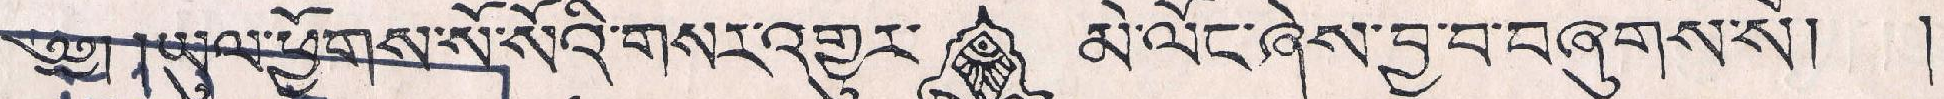༄༅། །ཡུལ་ཕྱོགས་སོ་སོའི་གསར་འགྱུར་ མེ་ལོང་ཞེས་བྱ་བ་བཞུགས་སོ། །
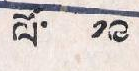ལོ་ ༡༩
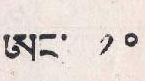ཨང་ ༡༠
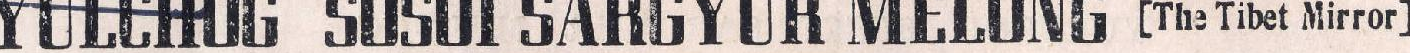YULCHUG SOSOI SARGYUR MELONG [The Tibet Mirror]
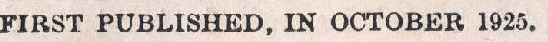FIRST PUBLISHED IN OCTOBER 1925
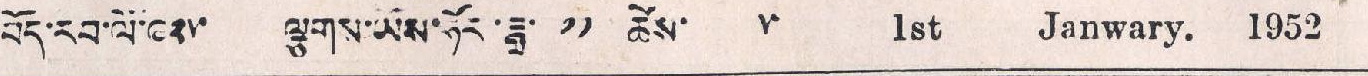བོད་རབ་ལོ་ ༩༢༥ ལྕགས་ཡོས་ཧོར་ཟླ་ ༡༡ ཚེས་ ༥ 1st Janwary. 1952
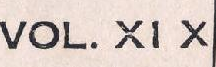VOL. XI X
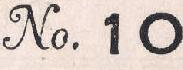No. 10
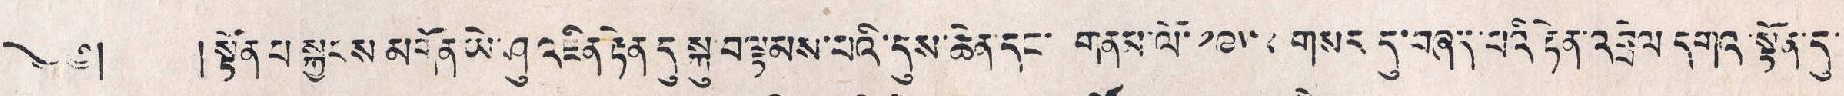༄༅། །སྟོན པ སྐྱབས་མགོན་ཡེ་ཤུ་འཇིག་རྟེན་དུ་སྐུ བལྟམས་པའི་དུས་ཆེན་དང་ གནམ་ལོ་ ༡༩༥༢ གསར དུ་བཞད་པའི རྟེན་འབྲེལ དགའ་སྟོན་དུ་
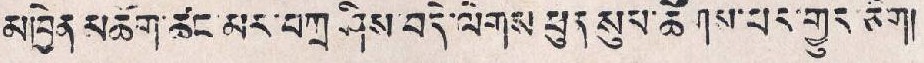མཁྱེན་མཆོག་ཚང་མར་བཀྲ ཤིས་བདེ་ལེགས་ཕུན་སུམ་ཚོགས་པར་གྱུར་ཅིག།
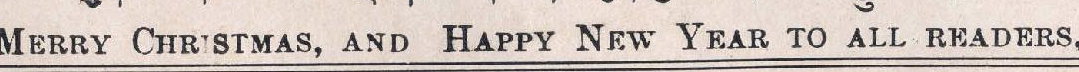MERRY CHRISTMAS, AND HAPPY NEW YEAR TO ALL READERS.
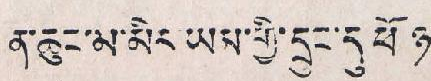ན་ཆུང་མ་མིར་ཡམ་གྱི་དྲུང་དུ་ཕོ ཉ་
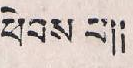ཕེབས པ།།
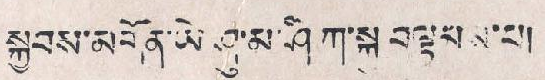སྐྱབས་མགོན་ཡེ་ཤུ་མ་ཤི་ཀ་སྐུ་བལྟམས་པ།
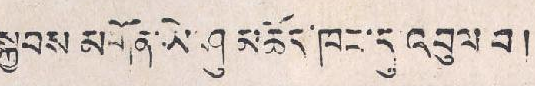སྐྱབས མགོན་ཡེ་ཤུ མཆོད་ཁང་དུ་འབུལ་བ།
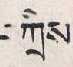བཀྲིས་
